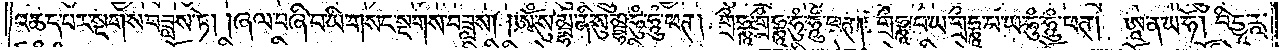འཆད་པར་སྔགས་བཟླས་ཏེ། །ཞལ་བཞི་པ་ཡི་གསང་སྔགས་བཟླས། །ཨོཾ་སུམྦྷ་ནི་སུམྦྷ་ཧུཾ་ཧཱུཾ་ཕཊ། གྲྀཧྞཱ་གྲྀཧྞཱ་ཧུཾ་ཧཱུཾ་ཕཊ། གྲྀཧྞཱ་པ་ཡ་གྲྀཧྞཱ་པ་ཡ་ཧུཾ་ཧཱུཾ་ཕཊ། ཨཱ་ན་ཡ་ཧོ། བིདྱཱ་རཱ་
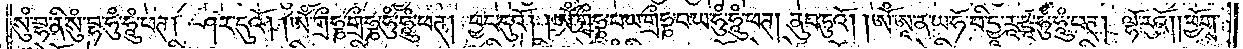སུཾ་བྷ་ནི་སུཾ་བྷ་ཧཱུཾ་ཧཱུཾ་ཕཊ། ཤར་དུའོ། །ཨོཾ་གྲྀཧྞ་གྲྀཧྞ་ཧུཾ་ཧཱུཾ་ཕཊ། བྱང་དུའོ། །ཨོཾ་གྲྀཧྞ་པ་ཡ་གྲྀཧྞ་པ་ཡ་ཧུཾ་ཧཱུཾ་ཕཊ། ནུབ་ཏུའོ། །ཨོཾ་ཨཱ་ན་ཡ་ཧོ་བི་དྱ་རཱ་ཛཱ་ཧུཾ་ཧཱུཾ་ཕཊ། ལྷོ་རུའོ། །ཕྱོགས་
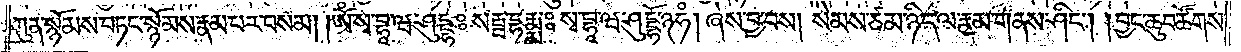ཀུན་སྙོམས་བཏང་སྙོམས་རྣམ་པར་བསམ། །ཨོཾ་སྭཱ་བྷཱ་ཝ་ཤུདྡྷཿསརྦ་དྷརྨྨཿསྭ་བྷཱ་ཝ་ཤུདྡྷོ་ཉ་ཧཾ། ཞེས་བྱ་བས། སེམས་ཙམ་ཉིད་ལ་རྣམ་གནས་ཤིང༌། །བྱང་ཆུབ་ཚོགས་
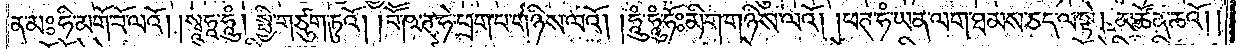ན་མཿཧི་མགོ་བོ་ལའོ། །སྭཱཧཱ་ཧཱུཾ། སྤྱི་གཙུག་ཏུའོ། །བཽ་ཥ་ཊ་ཧེ་ཕྲག་པ་གཉིས་ལའོ། །ཧཱུཾ་ཧཱུཾ་ཧོཿམིག་གཉིས་ལའོ། །ཕཊ་ཧཾ་ཡན་ལག་ཐམས་ཅད་ལ་སྟེ། །མཚོན་ཆའོ། །
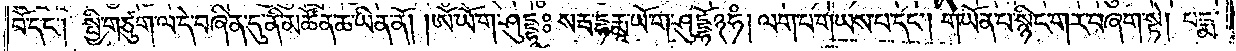བོ་དང༌། སྤྱི་གཙུག་ལ་དེ་བཞིན་དུ་ནི་མཚོན་ཆ་ཡིན་ནོ། །ཨོཾ་ཡོ་ག་ཤུདྡྷཱཿསརྦ་དྷརྨཱ་ཡོ་ག་ཤུདྡྷོཉཧཾ། ལག་པ་གཡས་པ་དང༌། གཡོན་པ་སྙིང་གར་བཞག་སྟེ། པདྨ་
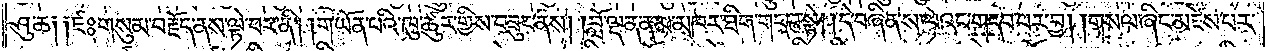ཤུ་ཆ༑ ༑ཛཿགསུམ་བརྗོད་ནས་ལྟེ་བར་ནི། །གཡོན་པའི་ཁུ་ཚུར་གྱིས་བཟུང་ནས། །བློ་ལྡན་ནམ་མཁར་ཐིག་གདབ་སྟེ། །དེ་བཞིན་ས་ལའང་གདབ་པར་བྱ། །གསལ་ཞིང་མཛེས་པར་
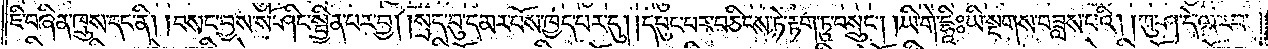ཇི་བཞིན་ཁྲུས་དང་ནི། །བསང་བྱས་སོ་ཤིང་སྦྱིན་པར་བྱ། །སྲད་བུ་དམར་པོས་ཁྱད་པར་དུ། །དཔུང་པར་བཅིངས་ཏེ་རྟག་ཏུ་བསྲུང༌། །ཡི་གེ་དྷཱིཿཡི་སྔགས་བཟླས་པའི། །ཀུ་ཤ་དེ་ལ་རབ་
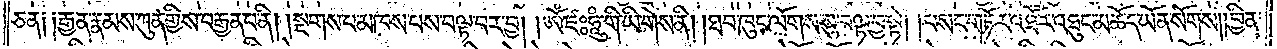ཅན༑ ༑རྒྱན་རྣམས་ཀུན་གྱིས་བརྒྱན་པ་ནི། །སྔགས་པ་མཁས་པས་བལྟ་བར་བྱ། །ཨོཾ་ཛཿཧཱུཾ་གི་ཡི་གེས་ནི། །ཐབ་ཁུང་ལོགས་སུ་བལྟ་བྱ་སྟེ། །བསང་གཏོར་འཐོར་འཐུང་མཆོད་ཡོན་སོགས། །བྱིན་
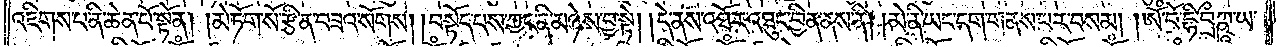འཇིགས་པ་ནི་ཆེན་པོ་སྟོན། །མེ་ཏོག་སོ་རྩི་ན་བཟའ་སོགས། །བསྟོད་པས་ཀྱང་ནི་མཉེས་བྱ་སྟེ། །དེ་ནས་འཐོར་འཐུང་བྱིན་ནས་ནི། །མེ་ནི་ཡང་དག་གནས་པར་བསམ། །ཨོཾ་བོ་དྷི་བྲྀཀྵཱ་ཡ་
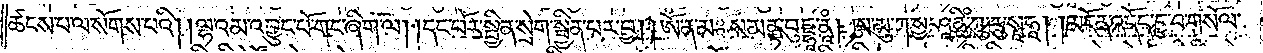ཚངས་པ་ལ་སོགས་པའི། །ལྷ་འམ་འབྱུང་པོ་གང་ཞིག་ལ། །དང་པོར་སྦྱིན་སྲེག་སྦྱིན་པར་བྱ། །ཨོཾ་ན་མཿ ས་མནྟ་བུདྡྷཱ་ནཱཾ། ཨ་མུ་ཀ་སྱ་ཤཱནྟིཾ་ཀུ་རུ་སྭཱཧཱ། །མངོན་འདོད་བྱ་བ་གསོལ་
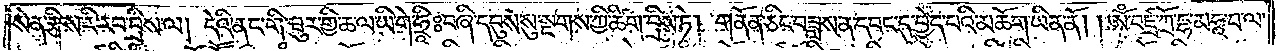སེན་རྩིས་རི་རབ་བྲིས་ལ། དེའི་ནང་གི་ཟུར་གྱི་ཆ་ལ་ཡི་གེ་ཧྲཱིཿ བཞི་དབུས་སུ་སྔགས་ཀྱི་ཚིག་བྲིས་ཏེ། གནོན་ཅིང་བཟླས་ན་དབང་དུ་བྱེད་པའི་མཆོག་ཡིན་ནོ། །ཨོཾ་བཛྲ་ཀྲོ་དྷ་མཧཱ་བ་ལ་
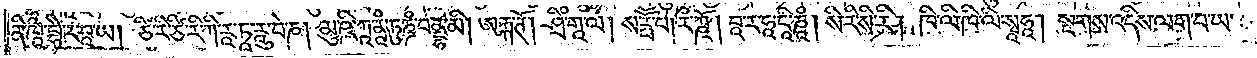ནི་ཁཱ་བྷཻ་ར་བཱ་ཡ། ཙི་རི་ཙི་རི་ཀི་རཱ་ཏཱ་རཱུ་བ་ཎ། མུ་ཥི་ཀཱ་ནཱཾ་ཏུཎྜཾ་བནྡྷ་མི། ཨརྐྐ་ཊོ། ཤྲིཾ་གཱ་ལ། སཪྦཽ་པ། རྀ་ཀྵོ། བཱ་ར་ཧཱ་དཱི་ཎཱཾ། སི་རི་སི་རི། ཁི་ལི་ཁི་ལི་སྭཱཧཱ། སྔགས་འདིས་ལག་པ་ཡ་
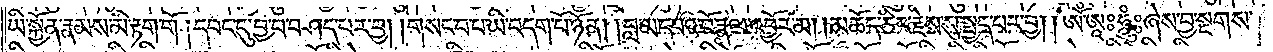ཡི་སྐྱོན་རྣམས་མི་རྟག་གོ །དབང་དུ་བྱ་བ་བཤད་པར་བྱ། །གསང་བ་པ་ཡི་བདག་པོ་ཉོན། །བླ་མ་དཔའ་བོ་རྣལ་འབྱོར་མ། །མཆོད་ཅིང་རྗེས་སུ་སྤྱད་པར་བྱ། །ཨོཾ་ཨཱཿཧཱུཾཿཞེས་བྱ་སྔགས་
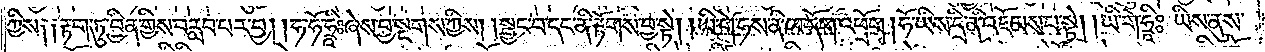ཀྱིས༑ ༑རྟག་ཏུ་བྱིན་གྱིས་བརླབ་པར་བྱ། །ཧ་ཧོ་ཧྲཱིཿཞེས་བྱ་སྔགས་ཀྱིས། །སྦྱང་བ་དང་ནི་རྟོགས་བྱ་སྟེ། །ཡི་གེ་ཧས་ནི་ཁ་དོག་འཕྲོག །ཧོ་ཡིས་དྲི་ནི་འཇོམས་པ་སྟེ། །ཡི་གེ་ཧྲཱིཿཡིས་ནུས་
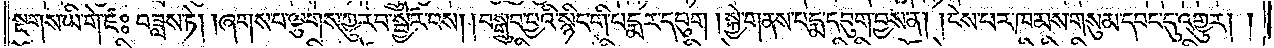སྔགས་ཡི་གེ་ཛཿབཟླས་ཏེ། །ཞགས་པ་ལྕགས་ཀྱུ་རབ་སྦྱོར་བས། །བསྒྲུབ་བྱའི་སྙིང་གི་པདྨར་དབུག །སྐྱེ་གནས་པདྨ་དབུག་བྱས་ན། །ངེས་པར་ཁམས་གསུམ་དབང་དུ་འགྱུར། །
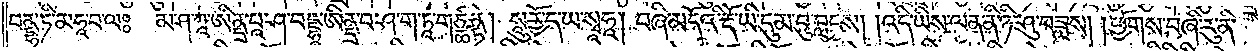བནྡྷ་ཏི་མཧཱ་བ་ལཿ མ་ཤ་ཀཱ་ཨིནྡྲ་པཱ་ཤ་བདྡྷཱ་ཨིནྡྲ་བ་ཤ་ག་ཏཱ་གཙྪནྟེ། སཱུ་ཪྱོ་ད་ཡ་སྭཱཧཱ། བཞི་མདོའི་རྡོ་ཡི་དུམ་བུ་བླངས། །འདི་ཡིས་ལན་ནི་ཉི་ཤུ་བཟླས། །ཕྱོགས་བཞི་རུ་ནི་
